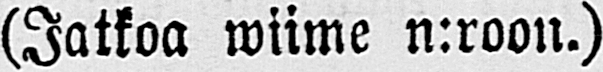(Jatkoa wiime n:roon.)
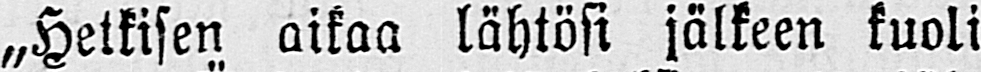„Hetkisen aikaa lähiösi jälkeen kuoli
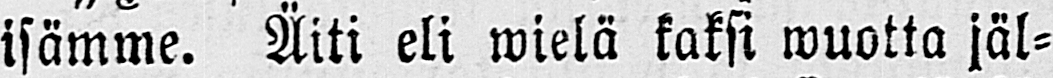isämme. Äiti eli wielä kaksi wuotta jäl-
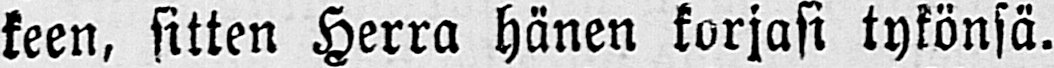keen, sitten Herra hänen korjasi tykönsä.
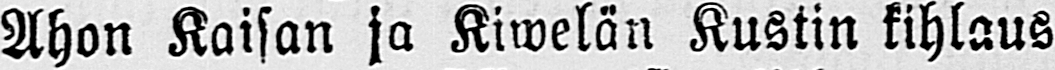Ahon Kaisan ja Kiwelän Kustin kihlaus
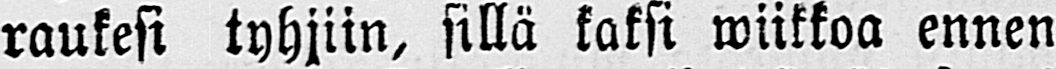raukesi tyhjiin, sillä kaksi wiikkoa ennen
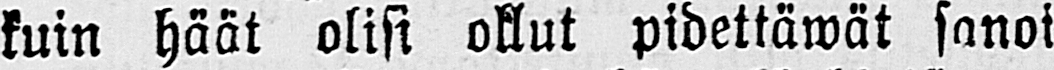kuin häät olisi ollut pidettäwät sanoi
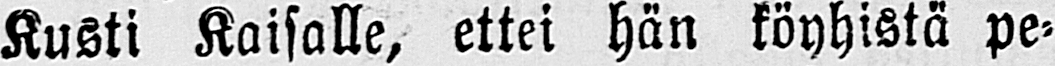Kusti Kaisalle, ettei hän köyhistä pe-
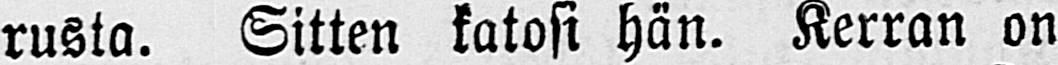rusta. Sitten katosi hän. Kerran on
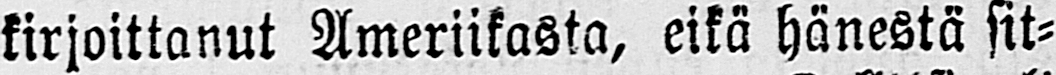kirjoittanut Ameriikasta, eikä hänestä sit-
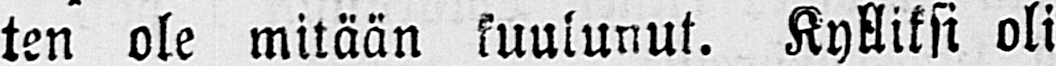ten ole mitään kuulunut. Kylliksi oli
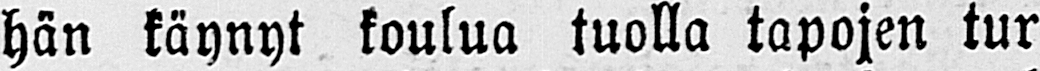hän käynyt koulua tuolla tapojen tur-
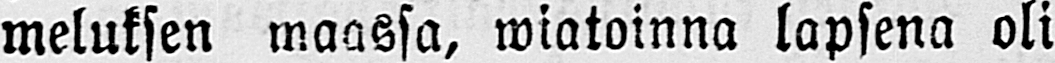meluksen maassa, wiatoinna lapsena oli
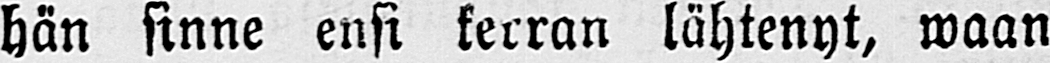hän sinne ensi kerran lähtenyt, waan
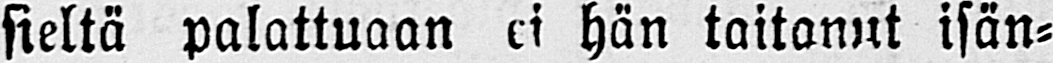sieltä palattuaan ei hän taitanut isän-
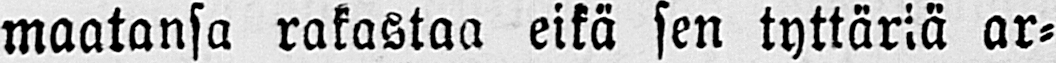maatansa rakastaa eikä sen tyttäriä ar-
